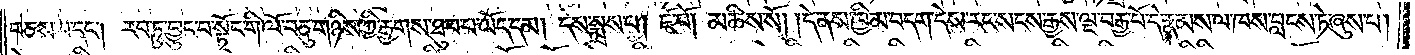བཅས་པ་དང༌། རབ་ཏུ་བྱུང་བ་སྟོང་གི་ལོ་བཅུ་གཉིས་ཀྱི་རྒྱགས་ཐུབ་པ་ཡོད་དམ། དེས་སྨྲས་པ། ཇོ་བོ། མཆིས་སོ། །དེ་ནས་ཁྱིམ་བདག་དེས་རང་སངས་རྒྱས་ལྔ་བརྒྱ་པོ་དེ་རྣམས་ལ་ཁས་བླངས་ཏེ་ཞུས་པ།
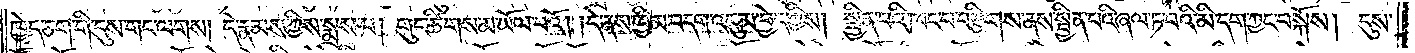ཁྱེད་ཅག་གི་དུས་གང་ལགས། དེ་རྣམས་ཀྱིས་སྨྲས་པ། གུང་ཚིགས་མ་ཡོལ་བའོ། །དེ་ནས་ཁྱིམ་བདག་འདུམ་བྱེད་ཀྱིས། སྦྱིན་པའི་ཁང་པ་བརྩིགས་ནས་སྦྱིན་པའི་ཞལ་ཏ་བའི་མི་དག་ཀྱང་བསྐོས། དུས་
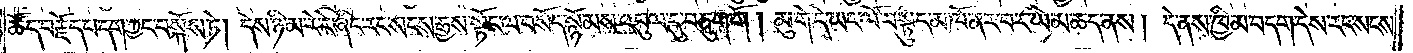ཚོད་བརྗོད་པ་དག་ཀྱང་བསྐོས་ཏེ། དེས་ཉི་མ་རེ་རེ་ཞིག་རང་སངས་རྒྱས་སྟོང་ལ་བསོད་སྙོམས་འབུལ་དུ་བཅུག་གོ །མུ་གེ་དེ་ཡང་ལོ་བསྟུད་མ་ཁོ་ནར་བར་ཡེ་མ་ཆད་ནས། དེ་ནས་ཁྱིམ་བདག་དེས་རང་སངས་
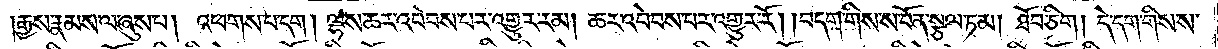རྒྱས་རྣམས་ལ་ཞུས་པ། འཕགས་པ་དག །ལྷས་ཆར་འབེབས་པར་འགྱུར་རམ། ཆར་འབེབས་པར་འགྱུར་རོ། །བདག་གིས་ས་བོན་སྩལ་ཏམ། ཐོབ་ཅིག །དེ་དག་གིས་ས་
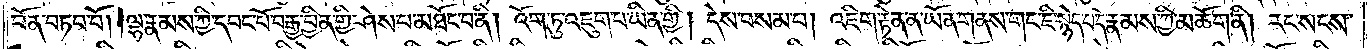བོན་བཏབ་བོ། །ལྷ་རྣམས་ཀྱི་དབང་པོ་བརྒྱ་བྱིན་གྱི་ཤེས་པ་མཐོང་བ་ནི། འོག་ཏུ་འཇུག་པ་ཡིན་གྱི། དེས་བསམ་པ། འཇིག་རྟེན་ན་ཡོན་གནས་གང་ཇི་སྙེད་པ་དེ་རྣམས་ཀྱི་མཆོག་ནི། རང་སངས་
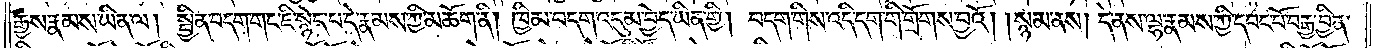རྒྱས་རྣམས་ཡིན་ལ། སྦྱིན་བདག་གང་ཇི་སྙེད་པ་དེ་རྣམས་ཀྱི་མཆོག་ནི། ཁྱིམ་བདག་འདུམ་བྱེད་ཡིན་གྱི། བདག་གིས་འདི་དག་གི་གྲོགས་བྱའོ། །སྙམ་ནས། དེ་ནས་ལྷ་རྣམས་ཀྱི་དབང་པོ་བརྒྱ་བྱིན་
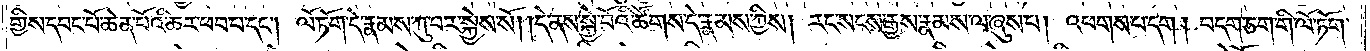གྱིས་དབང་པོ་ཆེན་པོའི་ཆར་ཕབ་པ་དང༌། ལོ་ཏོག་དེ་རྣམས་ཀུ་བར་སྐྱེས་སོ། །དེ་ནས་སྐྱེ་བོའི་ཚོགས་དེ་རྣམས་ཀྱིས། རང་སངས་རྒྱས་རྣམས་ལ་ཞུས་པ། འཕགས་པ་དག། བདག་ཅག་གི་ལོ་ཏོག་
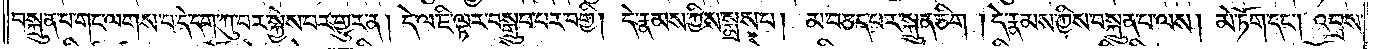བསྐྲུན་པ་གང་ལགས་པ་དེ་དག་ཀུ་བར་སྐྱེས་པར་གྱུར་ན། དེ་ལ་ཇི་ལྟར་བསྒྲུབ་པར་བགྱི། དེ་རྣམས་ཀྱིས་སྨྲས་པ། མ་བཅད་པར་སྐྲུན་ཅིག །དེ་རྣམས་ཀྱིས་བསྐྲུན་པ་ལས། མེ་ཏོག་དང༌། འབྲས་
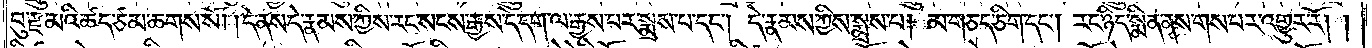བུ་རྫ་མའི་ཚད་ཙམ་ཆགས་སོ། །དེ་ནས་དེ་རྣམས་ཀྱིས་རང་སངས་རྒྱས་དེ་དག་ལ་རྒྱས་པར་སྨྲས་པ་དང༌། དེ་རྣམས་ཀྱིས་སྨྲས་པ། མ་གཅད་ཅིག་དང༌། རང་ཉིད་སྨིན་ནས་གས་པར་འགྱུར་རོ། །
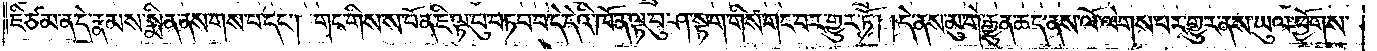ཇི་ཙམ་ན་དེ་རྣམས་སྨིན་ནས་གས་པ་དང༌། གང་གིས་ས་བོན་ཇི་ལྟ་བུ་བཏབ་པ་དེ་དེའི་ཁོ་ན་ལྟ་བུ་ཤ་སྟག་གིས་གང་བར་གྱུར་ཏོ། །དེ་ནས་མུ་གེ་རྒྱུན་ཆད་ནས་ལོ་ལེགས་པར་གྱུར་ནས་ཡུལ་ཕྱོགས་
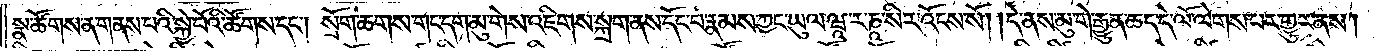སྣ་ཚོགས་ན་གནས་པའི་སྐྱེ་བོའི་ཚོགས་དང༌། སྲོག་ཆགས་གང་དག་མུ་གེས་འཇིགས་སྐྲག་ནས་དོང་བ་རྣམས་ཀྱང་ཡུལ་ཝཱ་ར་ཎཱ་སིར་འོངས་སོ། །དེ་ནས་མུ་གེ་རྒྱུན་ཆད་དེ་ལོ་ལེགས་པར་གྱུར་ནས།
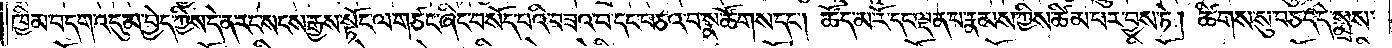ཁྱིམ་བདག་འདུམ་བྱེད་ཀྱིས་དེ་ན་རང་སངས་རྒྱས་སྟོང་ལ་གཙང་ཞིང་བསོད་པའི་བཟའ་བ་དང་བཅའ་བ་སྣ་ཚོགས་དང༌། ཚོད་མ་རོ་དང་ལྡན་པ་རྣམས་ཀྱིས་ཚིམ་པར་བྱས་ཏེ། ཚིགས་སུ་བཅད་དེ་སྨྲས་
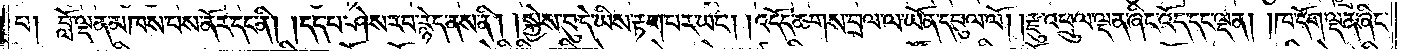པ། བློ་ལྡན་མཁས་པས་ནོར་དང་ནི། །དད་པ་ཤེས་རབ་རྙེད་ནས་ནི། །སྐྱེས་བུ་དེ་ཡིས་རྟག་པར་ཡང༌། །འདོད་ཆགས་བྲལ་ལ་ཡོན་དབུལ་ལོ། །རྫུ་འཕྲུལ་ལྡན་ཞིང་འོད་དང་ལྡན། །ཁ་དོག་ལྡན་ཞིང་
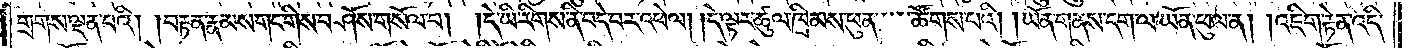གྲགས་ལྡན་པའི། །བརྟན་རྣམས་གང་གིས་བཤོས་གསོལ་པ། །དེ་ཡི་རིགས་ནི་བདེ་བར་འཕེལ། །དེ་ལྟར་ཚུལ་ཁྲིམས་ཕུན་ཚོགས་པའི། །ཡོན་གནས་དག་ལ་ཡོན་ཕུལ་ན། །འཇིག་རྟེན་འདི་
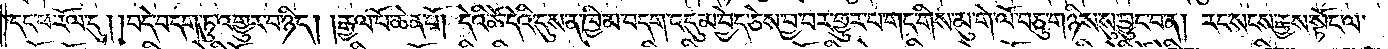དང་ཕ་རོལ་དུ། །བདེ་བ་དག་ཏུ་འགྱུར་བ་ཉིད། །རྒྱལ་པོ་ཆེན་པོ། དེའི་ཚེ་དེའི་དུས་ན་ཁྱིམ་བདག་འདུམ་བྱེད་ཅེས་བྱ་བར་གྱུར་པ་གང་གིས་མུ་གེ་ལོ་བཅུ་གཉིས་སུ་བྱུང་བ་ན། རང་སངས་རྒྱས་སྟོང་ལ་
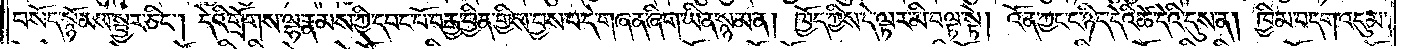བསོད་སྙོམས་སྦྱར་ཅིང༌། དེའི་གྲོགས་ལྷ་རྣམས་ཀྱི་དབང་པོ་བརྒྱ་བྱིན་གྱིས་བྱས་པ་དེ་གཞན་ཞིག་ཡིན་སྙམ་ན། ཁྱོད་ཀྱིས་དེ་ལྟར་མི་བལྟ་སྟེ། འོན་ཀྱང་ང་ཉིད་དེའི་ཚེ་དེའི་དུས་ན། ཁྱིམ་བདག་འདུམ་
